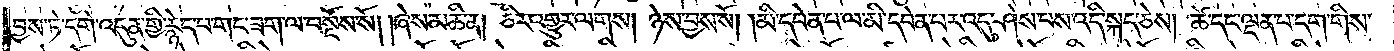བྱས་ཏེ་དགེ་འདུན་གྱི་རྙེད་པ་གང་ཟག་ལ་བསྔོས་སོ། །ཞེས་མཆི་ན། ཅིར་འགྱུར་ལགས། ཉེས་བྱས་སོ། །མི་དབེན་པ་ལ་མི་དབེན་པར་འདུ་ཤེས་པས་འདི་སྐད་ཅེས། ཚེ་དང་ལྡན་པ་དག་གིས་
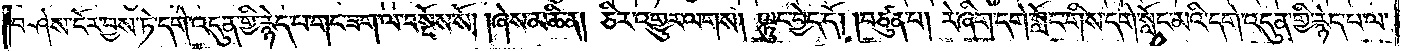བཤེས་ངོར་བྱས་ཏེ་དགེ་འདུན་གྱི་རྙེད་པ་གང་ཟག་ལ་བསྔོས་སོ། །ཞེས་མཆི་ན། ཅིར་འགྱུར་ལགས། ལྟུང་བྱེད་དོ། །བཙུན་པ། རེ་ཞིག་དགེ་སློང་གིས་དགེ་སློང་མའི་དགེ་འདུན་གྱི་རྙེད་པ་ལ་
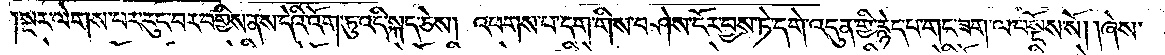།སྔར་ལེགས་པར་རུང་བར་བགྱིས་ནས་དེའི་འོག་ཏུ་འདི་སྐད་ཅེས། འཕགས་པ་དག་གིས་བཤེས་ངོར་བྱས་ཏེ་དགེ་འདུན་གྱི་རྙེད་པ་གང་ཟག་ལ་བསྔོས་སོ། །ཞེས་
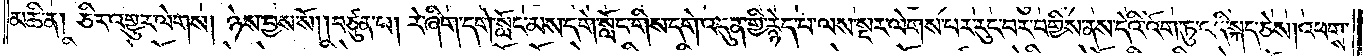མཆི་ན། ཅིར་འགྱུར་ལེགས། ཉེས་བྱས་སོ། །བཙུན་པ། རེ་ཞིག་དགེ་སློང་མས་དགེ་སློང་གིས་དགེ་འདུན་གྱི་རྙེད་པ་ལས་སྔར་ལེགས་པར་རུང་བར་བགྱིས་ནས་དེའི་འོག་ཏུ་འདི་སྐད་ཅེས། འཕགས་
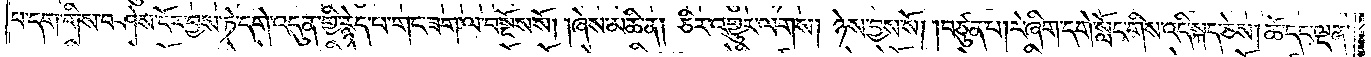པ་དག་གིས་བཤེས་ངོར་བྱས་ཏེ་དགེ་འདུན་གྱི་རྙེད་པ་གང་ཟག་ལ་བསྔོས་སོ། །ཞེས་མཆི་ན། ཅིར་འགྱུར་ལགས། ཉེས་བྱས་སོ། །བཙུན་པ། རེ་ཞིག་དགེ་སློང་གིས་འདི་སྐད་ཅེས། ཚེ་དང་ལྡན་
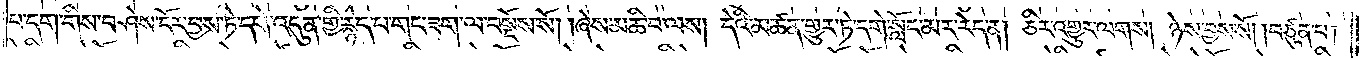པ་དག་གིས་བཤེས་ངོར་བྱས་ཏེ་དགེ་འདུན་གྱི་རྙེད་པ་གང་ཟག་ལ་བསྔོས་སོ། །ཞེས་མཆི་བ་ལས། དེའི་མཚན་གྱུར་ཏེ་དགེ་སློང་མར་རེད་ན། ཅིར་འགྱུར་ལགས། ཉེས་བྱས་སོ། །བཙུན་པ།
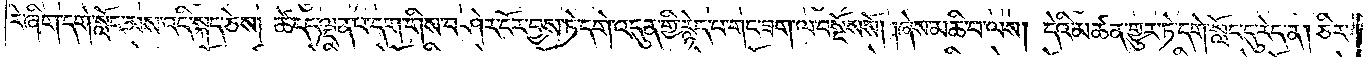རེ་ཞིག་དགེ་སློང་མས་འདི་སྐད་ཅེས། ཚེ་དང་ལྡན་པ་དག་གིས་བཤེར་ངོར་བྱས་ཏེ་དགེ་འདུན་གྱི་རྙེད་པ་གང་ཟག་ལ་བསྔོས་སོ། །ཞེས་མཆི་བ་ལས། དེའི་མཚན་གྱུར་ཏེ་དགེ་སློང་དུ་རེད་ན། ཅིར་
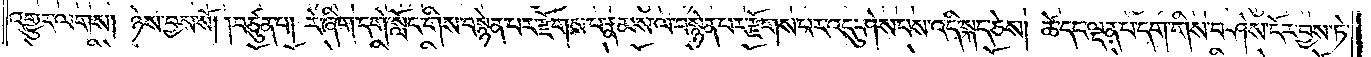འགྱུར་ལགས། ཉེས་བྱས་སོ། །བཙུན་པ། རེ་ཞིག་དགེ་སློང་གིས་བསྙེན་པར་རྫོགས་པ་རྣམས་ལ་བསྙེན་པར་རྫོགས་པར་འདུ་ཤེས་པས་འདི་སྐད་ཅེས། ཚེ་དང་ལྡན་པ་དག་གིས་བཤེས་ངོར་བྱས་ཏེ་
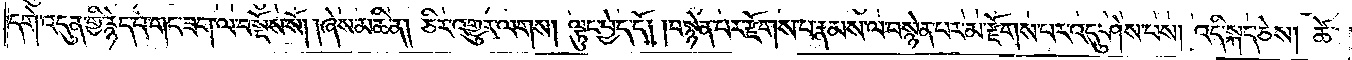དགེ་འདུན་གྱི་རྙེད་པ་གང་ཟག་ལ་བསྔོས་སོ། །ཞེས་མཆི་ན། ཅིར་འགྱུར་ལགས། ལྟུང་བྱེད་དོ། །བསྙེན་པར་རྫོགས་པ་རྣམས་ལ་བསྙེན་པར་མ་རྫོགས་པར་འདུ་ཤེས་པས། འདི་སྐད་ཅེས། ཚེ་
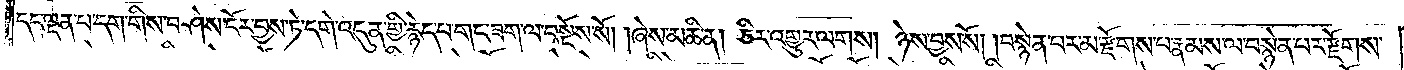དང་ལྡན་པ་དག་གིས་བཤེས་ངོར་བྱས་ཏེ་དགེ་འདུན་གྱི་རྙེད་པ་གང་ཟག་ལ་བསྔོས་སོ། །ཞེས་མཆིན། ཅིར་འགྱུར་ལགས། ཉེས་བྱས་སོ། །བསྙེན་པར་མ་རྫོགས་པ་རྣམས་ལ་བསྙེན་པར་རྫོགས་
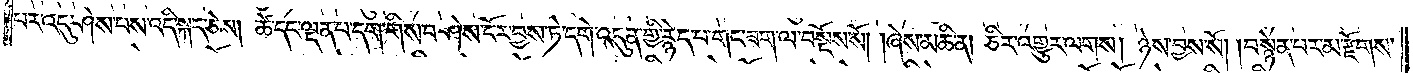པར་འདུ་ཤེས་པས་འདི་སྐད་ཅེས། ཚེ་དང་ལྡན་པ་དག་གིས་བཤེས་ངོར་བྱས་ཏེ་དགེ་འདུན་གྱི་རྙེད་པ་གང་ཟག་ལ་བསྔོས་སོ། །ཞེས་མཆིན། ཅིར་འགྱུར་ལགས། ཉེས་བྱས་སོ། །བསྙེན་པར་མ་རྫོགས་
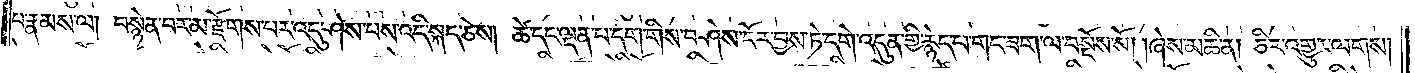པ་རྣམས་ལ། བསྙེན་པར་མ་རྫོགས་པར་འདུ་ཤེས་པས་འདི་སྐད་ཅེས། ཚེ་དང་ལྡན་པ་དག་གིས་བཤེས་ངོར་བྱས་ཏེ་དགེ་འདུན་གྱི་རྙེད་པ་གང་ཟག་ལ་བསྔོས་སོ། །ཞེས་མཆི་ན། ཅིར་འགྱུར་ལགས་
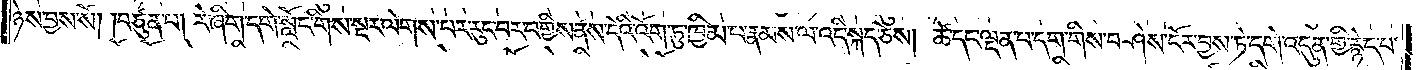ཉེས་བྱས་སོ། །བཙུན་པ། རེ་ཞིག་དགེ་སློང་གིས་སྔར་ལེགས་པར་རུང་བར་བགྱིས་ནས་དེའི་འོག་ཏུ་ཁྱིམ་པ་རྣམས་ལ་འདི་སྐད་ཅེས། ཚེ་དང་ལྡན་པ་དག་གིས་བཤེས་ངོར་བྱས་ཏེ་དགེ་འདུན་གྱི་རྙེད་པ་
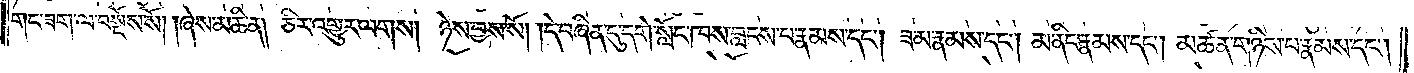གང་ཟག་ལ་བསྔོས་སོ། །ཞེས་མཆི་ན། ཅིར་འགྱུར་ལགས། ཉེས་བྱས་སོ། །དེ་བཞིན་དུ་དགེ་སློང་ཁས་བླངས་པ་རྣམས་དང༌། ཟ་མ་རྣམས་དང༌། མ་ནིང་རྣམས་དང༌། མཚན་གཉིས་པ་རྣམས་དང༌།
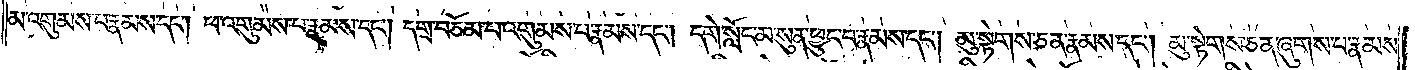མ་འགུམས་པ་རྣམས་དང༌། ཕ་འགུམས་པ་རྣམས་དང༌། དགྲ་བཅོམ་པ་འགུམས་པ་རྣམས་དང༌། དགེ་སློང་མ་སུན་ཕྱུང་བ་རྣམས་དང༌། མུ་སྟེགས་ཅན་རྣམས་དང༌། མུ་སྟེགས་ཅན་ཞུགས་པ་རྣམས་
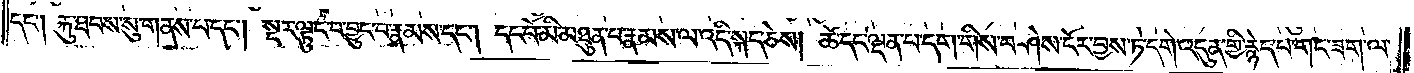དང༌། རྐུ་ཐབས་སུ་གནས་པ་དང༌། སྔར་ལྟུང་བ་བྱུང་བ་རྣམས་དང༌། དང་པོ་མི་མཐུན་པ་རྣམས་ལ་འདི་སྐད་ཅེས། ཚེ་དང་ལྡན་པ་དག་གིས་བཤེས་ངོར་བྱས་ཏེ་དགེ་འདུན་གྱི་རྙེད་པ་གང་ཟག་ལ་
